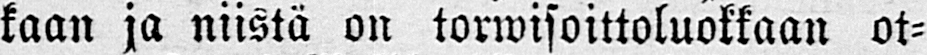kaan ja niistä on torwisoittoluokkaan ot-
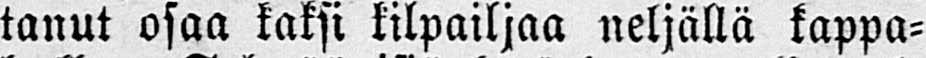tanut osaa kaksi kilpailjaa neljällä kappa-
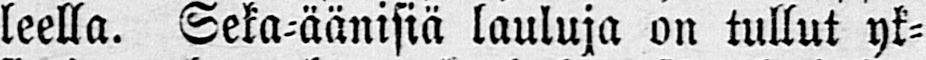leella. Seka-äänisiä lauluja on tullut yk-
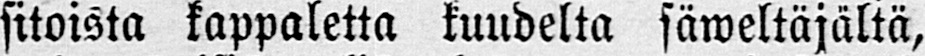sitoista kappaletta kuudelta säweltäjältä,
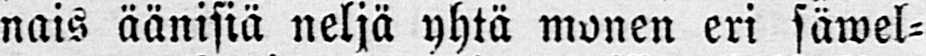nais äänistä neljä yhtä monen eri säwel-
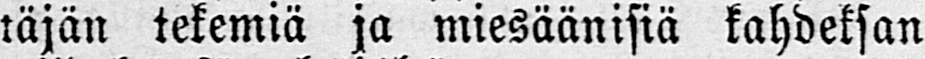täjän tekemiä ja miesäänisiä kahdeksan
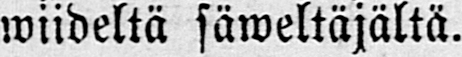wiideltä säweltäjältä.
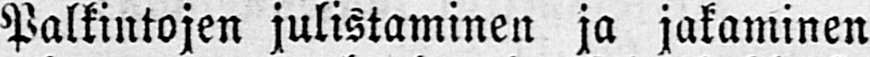Palkintojen julistaminen ja jakaminen
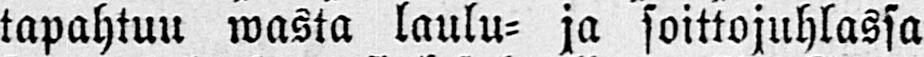tapahtuu wasta laulu- ja soittojuhlassa
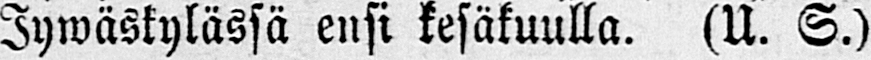Jywäskylässä ensi kesäkuulla. (U.S.)
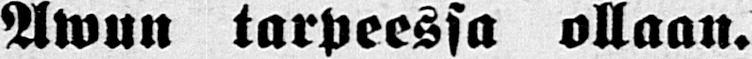Awun tarpeessa ollaan.
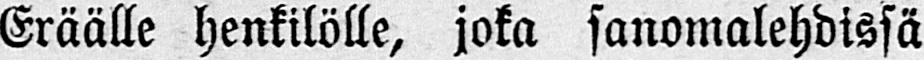Eräälle henkilölle, joka sanomalehdissä
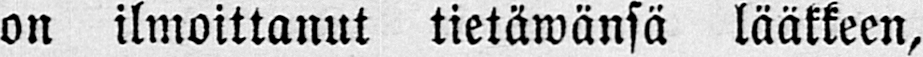on ilmoittanut tietäwänsä lääkkeen,
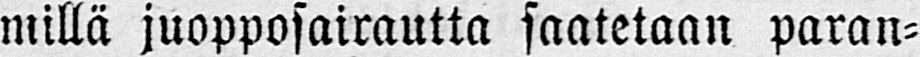millä juopposairautta saatetaan paran-
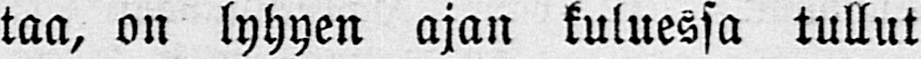taa, on lyhyen ajan kuluessa tullut
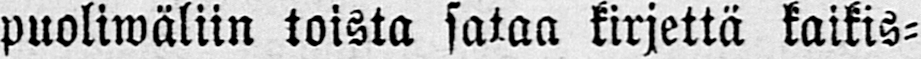puoliwäliin toista sataa kirjettä kaikis-
